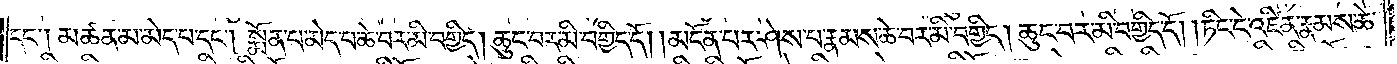དང༌། མཚན་མ་མེད་པ་དང༌། སྨོན་པ་མེད་པ་ཆེ་བར་མི་བགྱིད། ཆུང་བར་མི་བགྱིད་དོ། །མངོན་པར་ཤེས་པ་རྣམས་ཆེ་བར་མི་བགྱིད། ཆུང་བར་མི་བགྱིད་དོ། །ཏིང་ངེ་འཛིན་རྣམས་ཆེ་
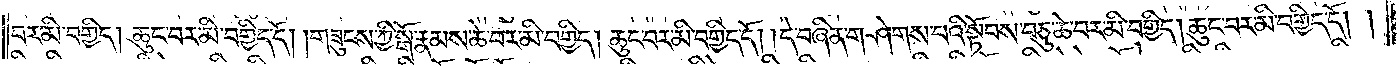བར་མི་བགྱིད། ཆུང་བར་མི་བགྱིད་དོ། །གཟུངས་ཀྱི་སྒོ་རྣམས་ཆེ་བར་མི་བགྱིད། ཆུང་བར་མི་བགྱིད་དོ། །དེ་བཞིན་གཤེགས་པའི་སྟོབས་བཅུ་ཆེ་བར་མི་བགྱིད། ཆུང་བར་མི་བགྱིད་དོ། །
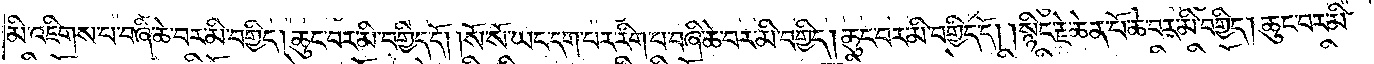མི་འཇིགས་པ་བཞི་ཆེ་བར་མི་བགྱིད། ཆུང་བར་མི་བགྱིད་དོ། །སོ་སོ་ཡང་དག་པར་རིག་པ་བཞི་ཆེ་བར་མི་བགྱིད། ཆུང་བར་མི་བགྱིད་དོ། །སྙིང་རྗེ་ཆེན་པོ་ཆེ་བར་མི་བགྱིད། ཆུང་བར་མི་
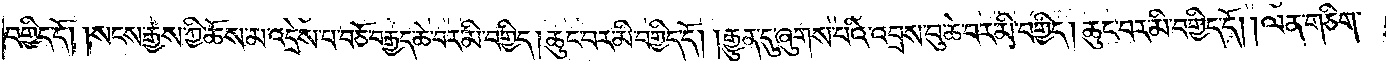བགྱིད་དོ། །སངས་རྒྱས་ཀྱི་ཆོས་མ་འདྲེས་པ་བཅོ་བརྒྱད་ཆེ་བར་མི་བགྱིད། ཆུང་བར་མི་བགྱིད་དོ། །རྒྱུན་དུ་ཞུགས་པའི་འབྲས་བུ་ཆེ་བར་མི་བགྱིད། ཆུང་བར་མི་བགྱིད་དོ། །ལན་གཅིག་
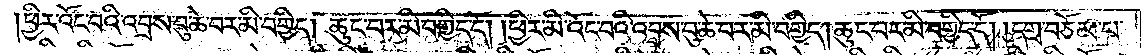ཕྱིར་འོང་བའི་འབྲས་བུ་ཆེ་བར་མི་བགྱིད། ཆུང་བར་མི་བགྱིད་དོ། །ཕྱིར་མི་འོང་བའི་འབྲས་བུ་ཆེ་བར་མི་བགྱིད། ཆུང་བར་མི་བགྱིད་དོ། །དགྲ་བཅོམ་པ་
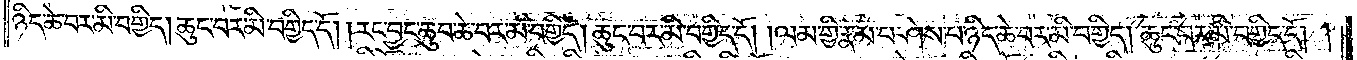ཉིད་ཆེ་བར་མི་བགྱིད། ཆུང་བར་མི་བགྱིད་དོ། །རང་བྱང་ཆུབ་ཆེ་བར་མི་བགྱིད། ཆུང་བར་མི་བགྱིད་དོ། །ལམ་གྱི་རྣམ་པ་ཤེས་པ་ཉིད་ཆེ་བར་མི་བགྱིད། ཆུང་བར་མི་བགྱིད་དོ། །
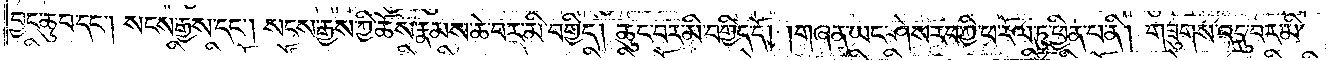བྱང་ཆུབ་དང༌། སངས་རྒྱས་དང༌། སངས་རྒྱས་ཀྱི་ཆོས་རྣམས་ཆེ་བར་མི་བགྱིད། ཆུང་བར་མི་བགྱིད་དོ། །གཞན་ཡང་ཤེས་རབ་ཀྱི་ཕ་རོལ་ཏུ་ཕྱིན་པ་ནི། གཟུགས་འདུ་བར་མི་
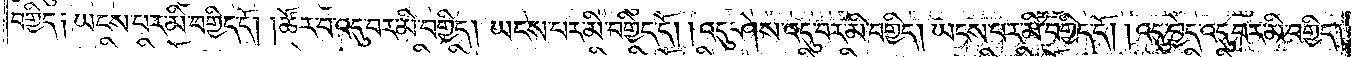བགྱིད༑ ཡངས་པར་མི་བགྱིད་དོ། །ཚོར་བ་འདུ་བར་མི་བགྱིད། ཡངས་པར་མི་བགྱིད་དོ། །འདུ་ཤེས་འདུ་བར་མི་བགྱིད། ཡངས་པར་མི་བགྱིད་དོ། །འདུ་བྱེད་འདུ་བར་མི་བགྱིད།
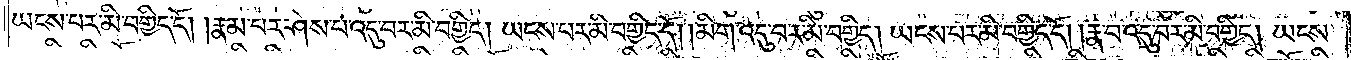ཡངས་པར་མི་བགྱིད་དོ། །རྣམ་པར་ཤེས་པ་འདུ་བར་མི་བགྱིད། ཡངས་པར་མི་བགྱིད་དོ། །མིག་འདུ་བར་མི་བགྱིད། ཡངས་པར་མི་བགྱིད་དོ། །རྣ་བ་འདུ་བར་མི་བགྱིད། ཡངས་
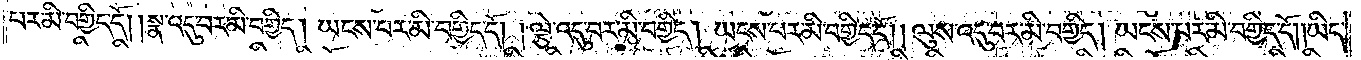པར་མི་བགྱིད་དོ། །སྣ་འདུ་བར་མི་བགྱིད། ཡངས་པར་མི་བགྱིད་དོ། །ལྕེ་འདུ་བར་མི་བགྱིད། ཡངས་པར་མི་བགྱིད་དོ། །ལུས་འདུ་བར་མི་བགྱིད། ཡངས་པར་མི་བགྱིད་དོ། །ཡིད་
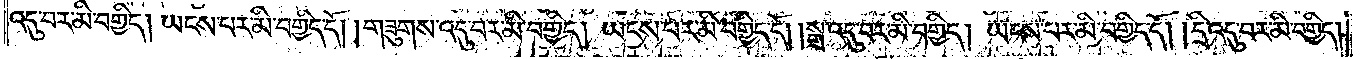འདུ་བར་མི་བགྱིད། ཡངས་པར་མི་བགྱིད་དོ། །གཟུགས་འདུ་བར་མི་བགྱིད། ཡངས་པར་མི་བགྱིད་དོ། །སྒྲ་འདུ་བར་མི་བགྱིད། ཡངས་པར་མ་བགྱིད་དོ། དྲི་འདུ་བར་མི་བགྱིད།
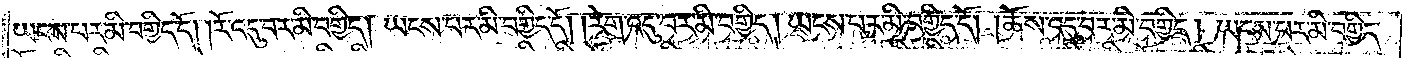ཡངས་པར་མི་བགྱིད་དོ། །རོ་འདུ་བར་མི་བགྱིད། ཡངས་པར་མི་བགྱིད་དོ། །རེག་འདུ་བར་མི་བགྱིད། ཡངས་པར་མི་བགྱིད་དོ། །ཆོས་འདུ་བར་མི་བགྱིད། ཡངས་པར་མི་བགྱིད་
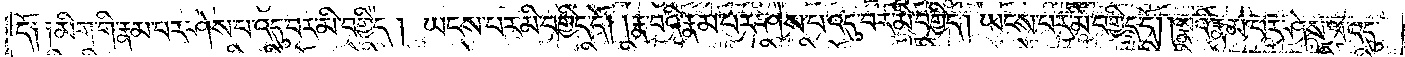དོ༑ ༑མིག་གི་རྣམ་པར་ཤེས་པ་འདུ་བར་མི་བགྱིད། ཡངས་པར་མི་བགྱིད་དོ། །རྣ་བའི་རྣམ་པར་ཤེས་པ་འདུ་བར་མི་བགྱིད། ཡངས་པར་མི་བགྱིད་དོ། །སྣའི་རྣམ་པར་ཤེས་པ་འདུ་
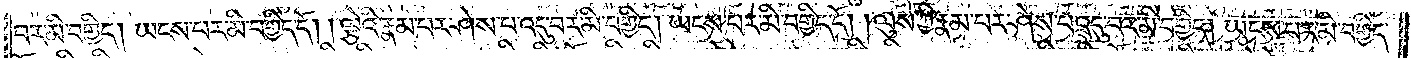བར་མི་བགྱིད། ཡངས་པར་མི་བགྱིད་དོ། །ལྕེའི་རྣམ་པར་ཤེས་པ་འདུ་བར་མི་བགྱིད། ཡངས་པར་མི་བགྱིད་དོ། །ལུས་ཀྱི་རྣམ་པར་ཤེས་པ་འདུ་བར་མི་བགྱིད། ཡངས་པར་མི་བགྱིད་
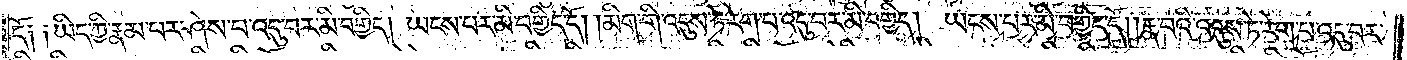དོ༑ ༑ཡིད་ཀྱི་རྣམ་པར་ཤེས་པ་འདུ་བར་མི་བགྱིད། ཡངས་པར་མི་བགྱིད་དོ། །མིག་གི་འདུས་ཏེ་རེག་པ་འདུ་བར་མི་བགྱིད། ཡངས་པར་མི་བགྱིད་དོ། །རྣ་བའི་འདུས་ཏེ་རེག་པ་འདུ་བར་
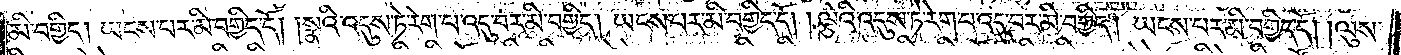མི་བགྱིད། ཡངས་པར་མི་བགྱིད་དོ། །སྣའི་འདུས་ཏེ་རེག་པ་འདུ་བར་མི་བགྱིད། ཡངས་པར་མི་བགྱིད་དོ། །ལྕེའི་འདུས་ཏེ་རེག་པ་འདུ་བར་མི་བགྱིད། ཡངས་པར་མི་བགྱིད་དོ། །ལུས་
